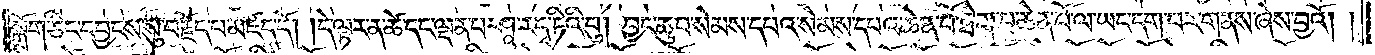སྒྲོག་ཅིང་དབྱངས་སུ་བརྗོད་པ་མཛད་དོ། །དེ་ལྟར་ན་ཚེ་དང་ལྡན་པ་ཤཱ་རདྭ་ཏིའི་བུ། བྱང་ཆུབ་སེམས་དཔའ་སེམས་དཔའ་ཆེན་པོ་ཐེག་པ་ཆེན་པོ་ལ་ཡང་དག་པར་གནས་ཞེས་བྱའོ། །
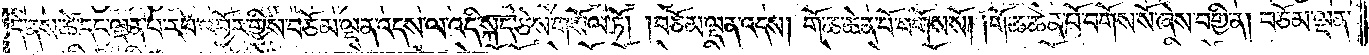དེ་ནས་ཚེ་དང་ལྡན་པ་རབ་འབྱོར་གྱིས་བཅོམ་ལྡན་འདས་ལ་འདི་སྐད་ཅེས་གསོལ་ཏོ། །བཅོམ་ལྡན་འདས། གོ་ཆ་ཆེན་པོ་བགོས་སོ། །གོ་ཆ་ཆེན་པོ་བགོས་ཞེས་བགྱི་ན། བཅོམ་ལྡན་
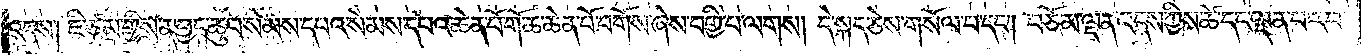འདས། ཇི་ཙམ་གྱིས་ན་བྱང་ཆུབ་སེམས་དཔའ་སེམས་དཔའ་ཆེན་པོ་གོ་ཆ་ཆེན་པོ་བགོས་ཞེས་བགྱི་པ་ལགས། དེ་སྐད་ཅེས་གསོལ་བ་དང༌། བཅོམ་ལྡན་འདས་ཀྱིས་ཚེ་དང་ལྡན་པ་རབ་
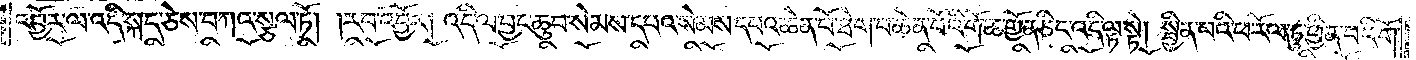འབྱོར་ལ་འདི་སྐད་ཅེས་བཀའ་སྩལ་ཏོ། །རབ་འབྱོར། འདི་ལ་བྱང་ཆུབ་སེམས་དཔའ་སེམས་དཔའ་ཆེན་པོ་ཐེག་པ་ཆེན་པོའི་གོ་ཆ་གྱོན་ཅིང་འདི་ལྟ་སྟེ། སྦྱིན་པའི་ཕ་རོལ་ཏུ་ཕྱིན་པའི་གོ་
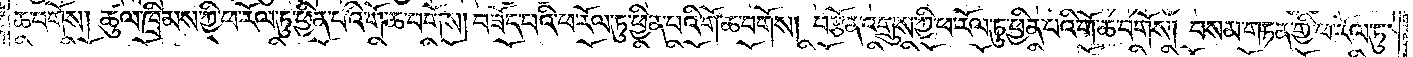ཆ་བགོས། ཚུལ་ཁྲིམས་ཀྱི་ཕ་རོལ་ཏུ་ཕྱིན་པའི་གོ་ཆ་བགོས། བཟོད་པའི་ཕ་རོལ་ཏུ་ཕྱིན་པའི་གོ་ཆ་བགོས། བརྩོན་འགྲུས་ཀྱི་ཕ་རོལ་ཏུ་ཕྱིན་པའི་གོ་ཆ་བགོས། བསམ་གཏན་གྱི་ཕ་རོལ་ཏུ་
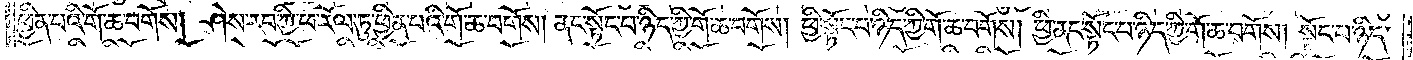ཕྱིན་པའི་གོ་ཆ་བགོས། ཤེས་རབ་ཀྱི་ཕ་རོལ་ཏུ་ཕྱིན་པའི་གོ་ཆ་བགོས། ནང་སྟོང་པ་ཉིད་ཀྱི་གོ་ཆ་བགོས། ཕྱི་སྟོང་པ་ཉིད་ཀྱི་གོ་ཆ་བགོས། ཕྱི་ནང་སྟོང་པ་ཉིད་ཀྱི་གོ་ཆ་བགོས། སྟོང་པ་ཉིད་
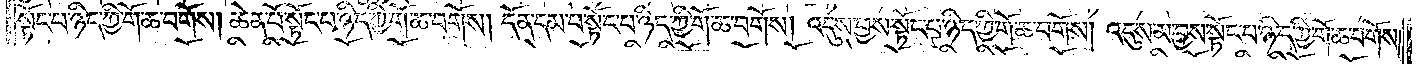སྟོང་པ་ཉིད་ཀྱི་གོ་ཆ་བགོས། ཆེན་པོ་སྟོང་པ་ཉིད་ཀྱི་གོ་ཆ་བགོས། དོན་དམ་བ་སྟོང་པ་ཉིད་ཀྱི་གོ་ཆ་བགོས། འདུས་བྱས་སྟོང་པ་ཉིད་ཀྱི་གོ་ཆ་བགོས། འདུས་མ་བྱས་སྟོང་པ་ཉིད་ཀྱི་གོ་ཆ་བགོས།
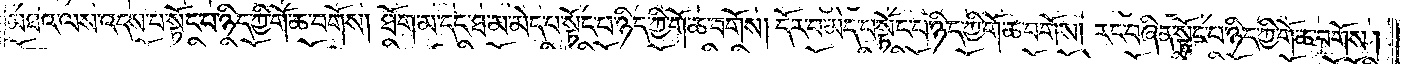མཐའ་ལས་འདས་པ་སྟོང་པ་ཉིད་ཀྱི་གོ་ཆ་བགོས། ཐོག་མ་དང་ཐ་མ་མེད་པ་སྟོང་པ་ཉིད་ཀྱི་གོ་ཆ་བགོས། དོར་བ་མེད་པ་སྟོང་པ་ཉིད་ཀྱི་གོ་ཆ་བགོས། རང་བཞིན་སྟོང་པ་ཉིད་ཀྱི་གོ་ཆ་བགོས།
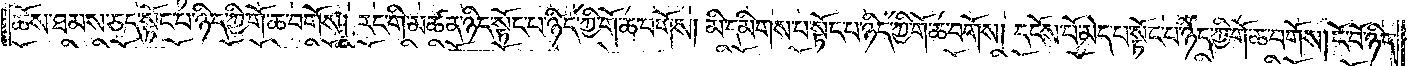ཆོས་ཐམས་ཅད་སྟོང་པ་ཉིད་ཀྱི་གོ་ཆ་བགོས། རང་གི་མཚན་ཉིད་སྟོང་པ་ཉིད་ཀྱི་གོ་ཆ་བགོས། མི་དམིགས་པ་སྟོང་པ་ཉིད་ཀྱི་གོ་ཆ་བགོས། དངོས་པོ་མེད་པ་སྟོང་པ་ཉིད་ཀྱི་གོ་ཆ་བགོས། ངོ་བོ་ཉིད་
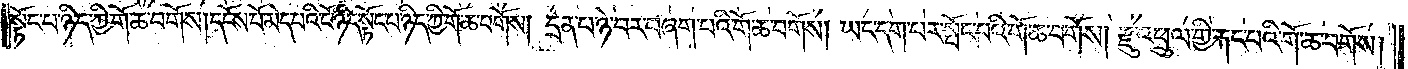སྟོང་པ་ཉིད་ཀྱི་གོ་ཆ་བགོས། དངོས་པོ་མེད་པའི་ངོ་བོ་ཉིད་སྟོང་པ་ཉིད་ཀྱི་གོ་ཆ་བགོས། དྲན་པ་ཉེ་བར་བཞག་པའི་གོ་ཆ་བགོས། ཡང་དག་པར་སྤོང་བའི་གོ་ཆ་བགོས། རྫུ་འཕྲུལ་གྱི་རྐང་པའི་གོ་ཆ་བགོས།
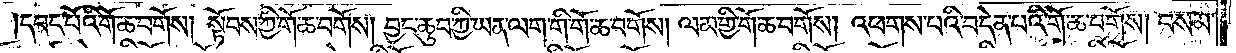དབང་པོའི་གོ་ཆ་བགོས། སྟོབས་ཀྱི་གོ་ཆ་བགོས། བྱང་ཆུབ་ཀྱི་ཡན་ལག་གི་གོ་ཆ་བགོས། ལམ་གྱི་གོ་ཆ་བགོས། འཕགས་པའི་བདེན་པའི་གོ་ཆ་བགོས། བསམ་
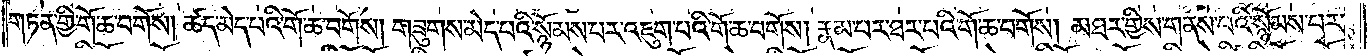གཏན་གྱི་གོ་ཆ་བགོས། ཚད་མེད་པའི་གོ་ཆ་བགོས། གཟུགས་མེད་པའི་སྙོམས་པར་འཇུག་པའི་གོ་ཆ་བགོས། རྣམ་པར་ཐར་པའི་གོ་ཆ་བགོས། མཐར་གྱིས་གནས་པའི་སྙོམས་པར་
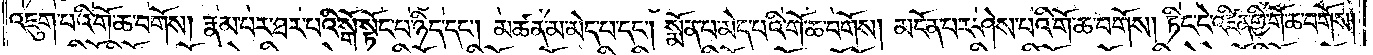འཇུག་པའི་གོ་ཆ་བགོས། རྣམ་པར་ཐར་པའི་སྒོ་སྟོང་པ་ཉིད་དང༌། མཚན་མ་མེད་པ་དང༌། སྨོན་པ་མེད་པའི་གོ་ཆ་བགོས། མངོན་པར་ཤེས་པའི་གོ་ཆ་བགོས། ཏིང་ངེ་འཛིན་གྱི་གོ་ཆ་བགོས།
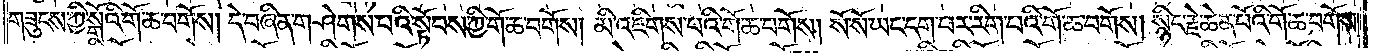གཟུངས་ཀྱི་སྒོའི་གོ་ཆ་བགོས། དེ་བཞིན་གཤེགས་པའི་སྟོབས་ཀྱི་གོ་ཆ་བགོས། མི་འཇིགས་པའི་གོ་ཆ་བགོས། སོ་སོ་ཡང་དག་པར་རིག་པའི་གོ་ཆ་བགོས། སྙིང་རྗེ་ཆེན་པོའི་གོ་ཆ་བགོས།
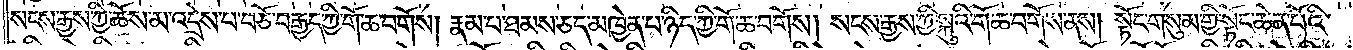སངས་རྒྱས་ཀྱི་ཆོས་མ་འདྲེས་པ་བཅོ་བརྒྱད་ཀྱི་གོ་ཆ་བགོས། རྣམ་པ་ཐམས་ཅད་མཁྱེན་པ་ཉིད་ཀྱི་གོ་ཆ་བགོས། སངས་རྒྱས་ཀྱི་སྐུའི་གོ་ཆ་བགོས་ནས། སྟོང་གསུམ་གྱི་སྟོང་ཆེན་པོའི་
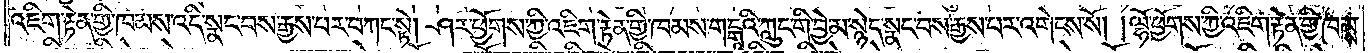འཇིག་རྟེན་གྱི་ཁམས་འདི་སྣང་བས་རྒྱས་པར་བཀང་སྟེ། ཤར་ཕྱོགས་ཀྱི་འཇིག་རྟེན་གྱི་ཁམས་གངྒཱའི་ཀླུང་གི་བྱེ་མ་སྙེད་སྣང་བས་རྒྱས་པར་འགེངས་སོ། །ལྷོ་ཕྱོགས་ཀྱི་འཇིག་རྟེན་གྱི་ཁམས་
